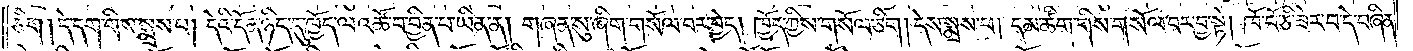ཅིག །དེ་དག་གིས་སྨྲས་པ། དེའི་དོན་ཉིད་དུ་ཁྱོད་ལ་འཚོ་བ་བྱིན་པ་ཡིན་ན། གཞན་སུ་ཞིག་གསོལ་བར་བྱེད། ཁྱོད་ཀྱིས་གསོལ་ཅིག །དེས་སྨྲས་པ། དམ་ཚིག་གིས་གསོལ་བར་བྱ་སྟེ། ཁོ་བོ་ཅི་ཟེར་བ་དེ་བཞིན་
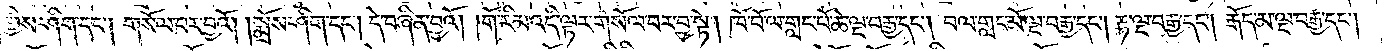གྱིས་ཤིག་དང༌། གསོལ་བར་བྱའོ། །སྨྲོས་ཤིག་དང༌། དེ་བཞིན་བྱའོ། །གོ་རིམ་འདི་ལྟར་གསོལ་བར་བྱ་སྟེ། ཁོ་བོ་ལ་གླང་པོ་ཆེ་ལྔ་བརྒྱ་དང༌། བལ་གླང་མོ་ལྔ་བརྒྱ་དང༌། རྟ་ལྔ་བརྒྱ་དང༌། རྒོད་མ་ལྔ་བརྒྱ་དང༌།
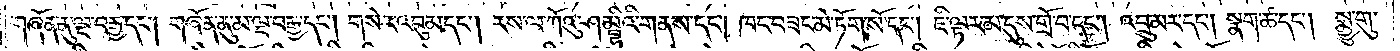གཞོན་ནུ་ལྔ་བརྒྱ་དང༌། གཞོན་ནུ་མ་ལྔ་བརྒྱ་དང༌། གསེར་འབུམ་དང༌། རས་ལ་ཀོའུ་ཤམྦྷིའི་གནས་དང༌། ཁང་བཟང་མེ་ཏོག་སོ་དང༌། ཇི་ལྟར་མ་དུས་གྲོ་བ་དང༌། འབྲུ་མར་དང༌། སྣག་ཚ་དང༌། སྨྱུ་གུ་
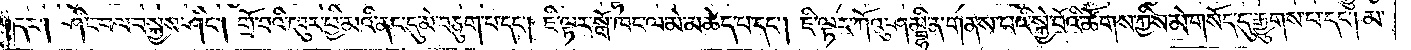དང༌། ཤིང་བལ་བསྐྱས་ཤིང༌། གྲོ་བའི་ཁུར་ཕྱི་མའི་ནང་དུ་མེ་བཅུག་པ་དང༌། ཇི་ལྟར་སྒོ་ཁང་ལ་མེ་མཆེད་པ་དང༌། ཇི་ལྟར་ཀོའུ་ཤམྦྷི་ན་གནས་པའི་སྐྱེ་བོའི་ཚོགས་ཀྱིས་མེ་གསོད་དུ་རྒྱུགས་པ་དང༌། མ་
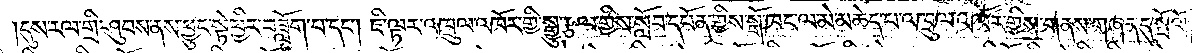དུས་རལ་གྲི་ཤུབས་ནས་ཕྱུང་སྟེ་ཕྱིར་བཟློག་པ་དང༌། ཇི་ལྟར་འཁྲུལ་འཁོར་གྱི་སྒྱུ་རྩལ་གྱིས་སློབ་དཔོན་གྱིས་སྒོ་ཁང་ལ་མེ་མཆེད་པ་འཁྲུལ་འཁོར་གྱིས་གནས་གཞན་དུ་སྤོའོ༎
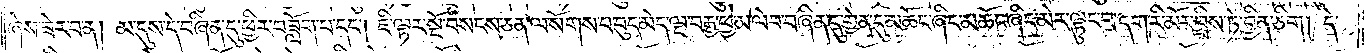ཞེས་ཟེར་བ་ན། མ་དུས་དེ་བཞིན་དུ་ཕྱིར་བཟློག་པ་དང༌། ཇི་ལྟར་སྔོ་བསངས་ཅན་ལ་སོགས་པ་བུད་མེད་ལྔ་བརྒྱ་ཕྱེ་མ་ལེབ་བཞིན་དུ་གྱེན་དུ་མཆོང་ཞིང་མཆོང་ཞིང་མེར་ལྟུང་བ་དག་རི་མོར་བྲིས་ཏེ་བྱིན་ཅིག །དེ་
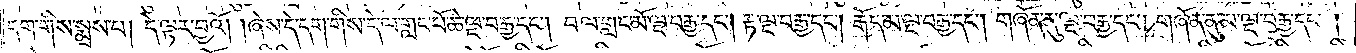དག་གིས་སྨྲས་པ། དེ་ལྟར་བྱའོ། །ཞེས་དེ་དག་གིས་དེ་ལ་གླང་པོ་ཆེ་ལྔ་བརྒྱ་དང༌། བལ་གླང་མོ་ལྔ་བརྒྱ་དང༌། རྟ་ལྔ་བརྒྱ་དང༌། རྒོད་མ་ལྔ་བརྒྱ་དང༌། གཞོན་ནུ་ལྔ་བརྒྱ་དང༌། གཞོན་ནུ་མ་ལྔ་བརྒྱ་དང༌།
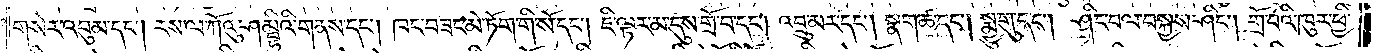གསེར་འབུམ་དང༌། རས་ལ་ཀོའུ་ཤམྦྷིའི་གནས་དང༌། ཁང་བཟང་མེ་ཏོག་གི་སོ་དང༌། ཇི་ལྟར་མ་དུས་གྲོ་བ་དང༌། འབྲུ་མར་དང༌། སྣག་ཚ་དང༌། སྨྱུ་གུ་དང༌། ཤིང་བལ་བསྐྱས་ཤིང༌། གྲོ་བའི་ཁུར་ཕྱི་
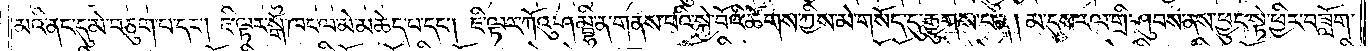མའི་ནང་དུ་མེ་བཅུག་པ་དང༌། ཇི་ལྟར་སྒོ་ཁང་ལ་མེ་མཆེད་པ་དང༌། ཇི་ལྟར་ཀོའུ་ཤམྦྷི་ན་གནས་པའི་སྐྱེ་བོའི་ཚོགས་ཀྱིས་མེ་གསོད་དུ་རྒྱུགས་པན། མ་དུས་རལ་གྲི་ཤུབས་ནས་ཕྱུང་སྟེ་ཕྱིར་བཟློག་
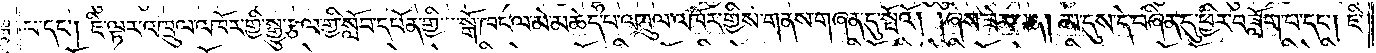པ་དང༌། ཇི་ལྟར་འཁྲུལ་འཁོར་གྱི་སྒྱུ་རྩལ་གྱི་སློབ་དཔོན་གྱི་སྒོ་ཁང་ལ་མེ་མཆེད་པ་འཁྲུལ་འཁོར་གྱིས་གནས་གཞན་དུ་སྤོའོ། །ཞེས་ཟེར་བ་ན། མ་དུས་དེ་བཞིན་དུ་ཕྱིར་བཟློག་པ་དང༌། ཇི་
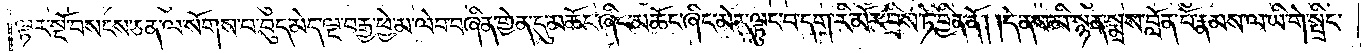ལྟར་སྔོ་བསངས་ཅན་ལ་སོགས་པ་བུད་མེད་ལྔ་བརྒྱ་ཕྱེ་མ་ལེབ་བཞིན་གྱེན་དུ་མཆོང་ཞིང་མཆོང་ཞིང་མེར་ལྟུང་བ་དག་རི་མོར་བྲིས་ཏེ་བྱིན་ནོ། །དེ་ནས་མི་སྙན་སྨྲས་བློན་པོ་རྣམས་ལ་ཡི་གེ་སྤྲིང་
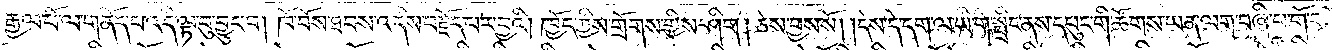རྒྱལ་པོ་ལ་གནོད་པ་འདི་ལྟ་བུ་བྱུང་བ། ཁོ་བོས་ཐབས་འདིས་བརྗོད་པར་བྱའོ། །ཁྱོད་ཀྱིས་གྲོགས་ཀྱི་ཤིག །ཅེས་བྱས་སོ། །དེས་དེ་དག་ལ་ཡི་གེ་སྤྲིང་ནས་དཔུང་གི་ཚོགས་ཡན་ལག་བཞི་པ་གོ་
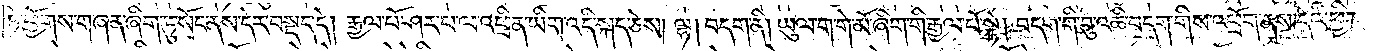ཏེ་ཕྱོགས་གཞན་ཞིག་ཏུ་སོང་ནས་དེར་བསྡད་དེ། རྒྱལ་པོ་ཤར་པ་ལ་འཕྲིན་ཡིག་འདི་སྐད་ཅེས། ལྷ། བདག་ནི། ཡུལ་ག་གེ་མོ་ཞིག་གི་རྒྱལ་པོ་སྟེ། བདག་གི་བུ་འཆི་བདག་གིས་འཕྲོག་ནས་དེའི་ཕྱིར་
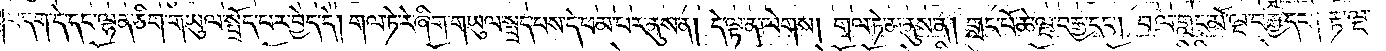བདག་དེ་དང་ལྷན་ཅིག་གཡུལ་སྤྲོད་པར་བྱེད་དེ། གལ་ཏེ་རེ་ཞིག་གཡུལ་སྤྲད་པས་དེ་ཕམ་པར་ནུས་ན། དེ་ལྟ་ན་ལེགས། གལ་ཏེ་མ་ནུས་ན། གླང་པོ་ཆེ་ལྔ་བརྒྱ་དང༌། བལ་གླང་མོ་ལྔ་བརྒྱ་དང༌། རྟ་ལྔ་
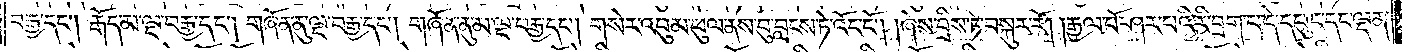བརྒྱ་དང༌། རྒོད་མ་ལྔ་བརྒྱ་དང༌། གཞོན་ནུ་ལྔ་བརྒྱ་དང༌། གཞོན་ནུ་མ་ལྔ་བརྒྱ་དང༌། གསེར་འབུམ་ཕུལ་ནས་བ་བླངས་ཏེ་འོང་ངོ༌། །ཞེས་བྲིས་ཏེ་བསྐུར་རོ། །རྒྱལ་པོ་ཤར་པའི་རི་བྲག་པ་དེ་དཔུང་དང་ལྡན་
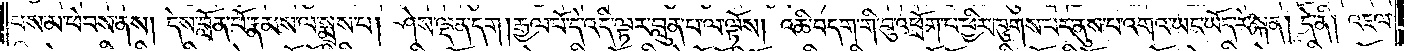པས་མ་ཕེབས་ནས། དེས་བློན་པོ་རྣམས་ལ་སྨྲས་པ། ཤེས་ལྡན་དག །རྒྱལ་པོ་དེ་འདི་ལྟར་བླུན་པ་ལ་ལྟོས། འཆི་བདག་གི་བུ་འཕྲོག་པ་ཕྱིར་ཁུགས་པར་ནུས་པ་འགའ་ཡང་ཡོད་རེ་སྐན། དེ་ནི། འཇལ་
